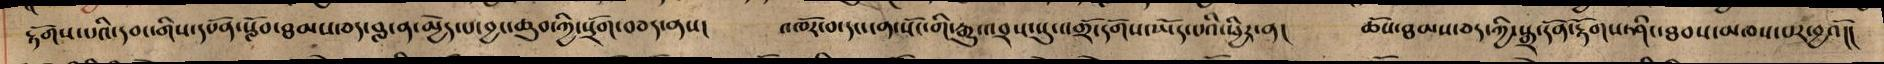རྟོགས་པའི་དབང་གིས་དཔོན་སློབ་ཐམས་ཅད་བླ་ན་མྱེད་པ་བྱང་ཆུབ་ཀྱི་སྲོག་བཅད་ནས། འཁོར་བ་དང་ངན་སོང་གི་རྒྱུ་འབྲས་སུ་འགྲོ་དགོས་ཡོད་པའི་ཕྱིར་ན། ཆོས་ཐམས་ཅད་ཀྱི་སྒྲ་དོན་རྟོགས་ཤིང་ཐབས་མཁས་པར་བྱའོ།།
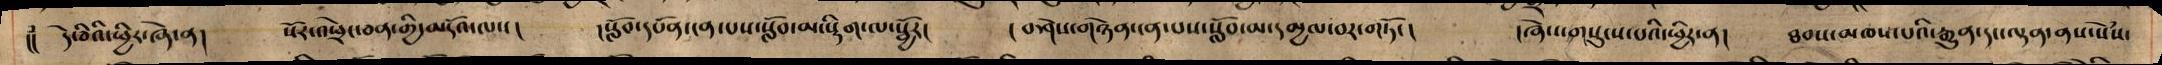།། དེ་ཅིའི་ཕྱིར་ཞེ་ན། སོར་འཕྲེང་ཅན་གྱི་མདོའ་ལས། །སློབ་དཔོན་ངན་པས་སློབ་མ་སྡིག་ལ་སྦྱོར། །བཤེས་གཉེན་ངན་པས་སློབ་མ་དམྱལ་བར་གཏོང། །ཞེས་གསུངས་པའི་ཕྱིར་ན། ཐབས་མཁས་པའི་རྒྱུན་དང་ལྡན་ནས་སེཾས་
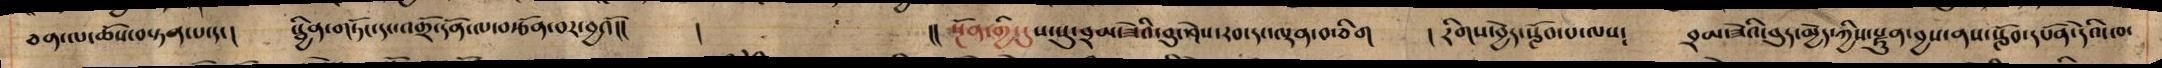ཅན་ལ་ཆོས་བསྟན་པ་དང། སྦྱིན་གཏོང་དང་འགྲོ་དོན་ལ་བརྩོན་བར་བྱའོ།། ། །། སྔོན་གྱི་དུས་སུ་བྲམ་ཟེའི་བུ་ཤེས་རབ་དང་ལྡན་བ་ཅིག ། རིགས་བྱེད་སློབ་པ་ལས༴ བྲམ་ཟེའི་བུད་མྱེད་ཀྱིས་སྫུན་བྱས་ནས་སློབ་དཔོན་དེའི་ཁ་
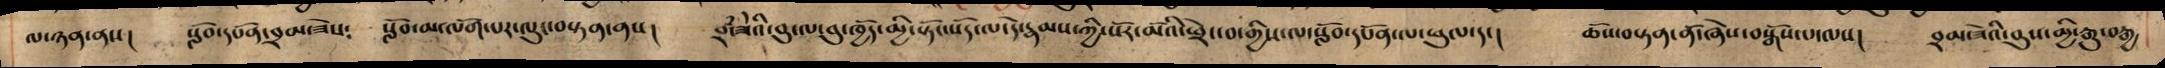ལ་ཉན་ནས། སློབ་དཔོན་བྲམ་ཟེས༴ སློབ་མ་ལོག་པར་ལུང་བསྟན་ནས། བྲཾ་ཟེའི་བུ་ལ་བུ་ཁྱོད་མྱི་སྟོང་སོད་ལ་དེ་རྣམས་ཀྱི་སོར་མོའི་ཕྲེང་བ་གྱིས་ལ་སློབ་དཔོན་ལ་ཕུལ་དང། ཆོས་བསྟན་ནོ་ཞེས་བསྒོས་པ་ལས། བྲམ་ཟེའི་བུས་མྱི་རྒྱུ་བརྒྱ
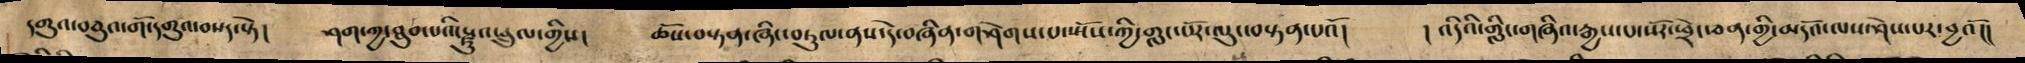དགུའ་བཅུའ་གོ་དགུའ་བསད་སྟེ། ཤག་ཀྱ་ཐུབ་པའི་སྫུ་འཕྲུལ་གྱིས། ཆོས་བསྟན་ཞིང་བཏུལ་ནས་དེ་བཞིན་གཤེགས་པ་ཡོས་ཀྱི་གླང་པོར་ལུང་བསྟན་པའོ། །འདིའི་གླིང་གཞིའ་རྒྱས་པ་སོར་ཕྲེང་ཅན་གྱི་མདོའ་ལས་ཤེས་པར་བྱའོ།།
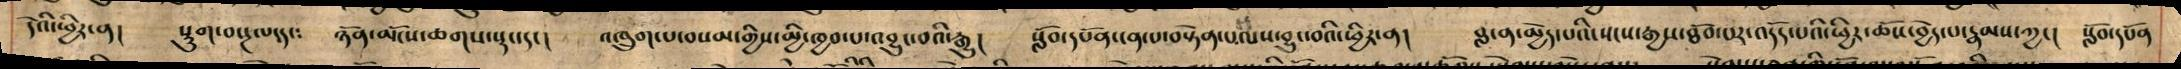དེའི་ཕྱིར་ན། སྡུག་བསྔལ་དང༴ ཉོན་མོངས་ཆགས་སྡང་དང། འཁྲུག་པ་བསམ་གྱིས་མྱི་ཁྱབ་པ་འབྱུང་བའི་རྒྱུ། སློབ་དཔོན་ངན་པ་བསྟོན་པ་ལས་བྱུང་བའི་ཕྱིར་ན། བླ་ན་མྱེད་པའི་སངས་རྒྱས་ཐོབ་པར་འདོད་པའི་ཕྱིར་ཆོས་བྱེད་པ་རྣམས་ཀྱང། སློབ་དཔོན
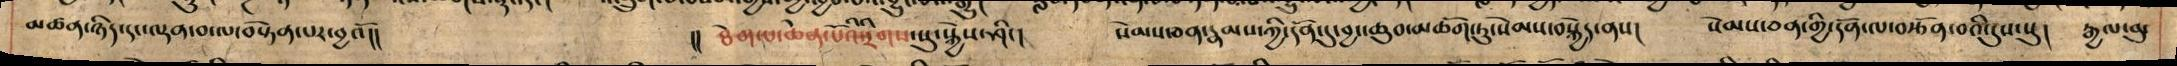མཚན་ཉིད་དང་ལྡན་བ་ལ་བསྟེན་པར་བྱའོ།། །། ཐེག་པ་ཆེན་པོའི་རིགས་སུ་སྐྱེས་ཤིང། སེམས་ཅན་རྣམས་ཀྱི་དོན་དུ་བྱང་ཆུབ་མཆོག་ཏུ་སེམས་བསྐྱེད་ནས། སེམས་ཅན་གྱི་དོན་ལ་བརྩོན་བའི་དུས་སུ། རྒྱལ་བུ་
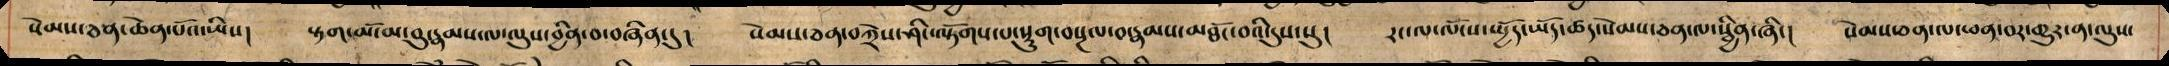སེམས་ཅན་ཆེན་པོའ་ཡིས། སྟག་མོ་མ་བུ་རྣམས་ལ་ལུས་བྱིན་བ་བཞིན་དུ། སེམས་ཅན་བཀྲེས་ཤིང་ལྟོགས་པ་སྡུག་བསྔལ་བ་རྣམས་མཐོང་བའི་དུས་སུ། རང་ལ་ལོངས་སྤྱོད་ཡོད་ཚད་སེམས་ཅན་ལ་སྦྱིན་ཞིང། སེམས་ཅན་ལ་ཕན་བར་གྱུར་ན་ལུས་
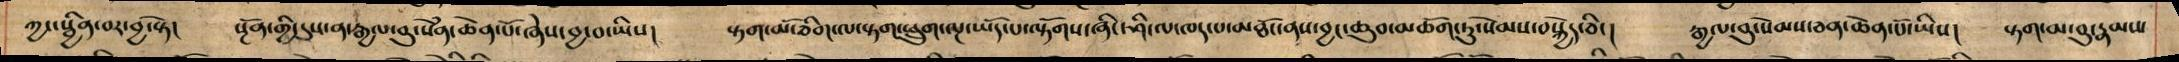ཀྱང་སྦྱིན་བར་བྱ་སྟེ། སྔོན་གྱི་དུས་ན་རྒྱལ་བུ་སན་ཆེན་པོ་ཞེས་བྱ་བ་ཡིས། སྟག་མོ་ཅིག་ལ་སྟག་ཕྲུག་ལྔ་ཡོད་པ་ལྟོགས་ཞཱིང་ཤི་ལ་ཁད་པ་མཐོང་ནས་བྱང་ཆུབ་མཆོག་ཏུ་སེམས་བསྐྱེད་ཅིང། རྒྱལ་བུ་སེམས་ཅན་ཆེན་པོ་ཡིས། སྟག་མ་བུ་རྣམས་
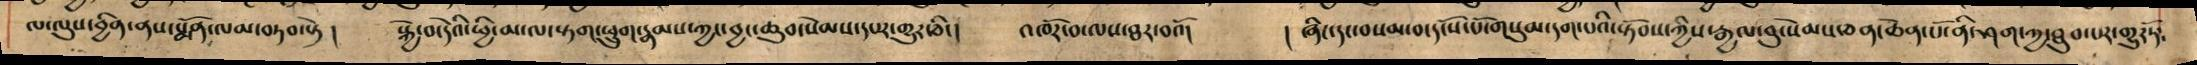ལ་ལུས་བྱིན་ནས་སྨོན་ལམ་བཏབ་སྟེ། སྐྱེ་བ་དེའི་ཕྱི་མ་ལ་སྟག་ཕྲུག་རྣམས་ཀྱང་བྱང་ཆུབ་སེམས་དཔར་གྱུར་ཅིང། འཁོར་བ་ལས་ཐར་བའོ། ། ཞིང་དང་བསམ་བ་དངོས་པོ་གསུམ་དག་པའི་སྟོབས་ཀྱིས་རྒྱལ་བུ་སེམས་ཅན་ཆེན་པོ་ནི་ཤག་ཀྱ་ཐུབ་པར་གྱུར་ཏོ༴
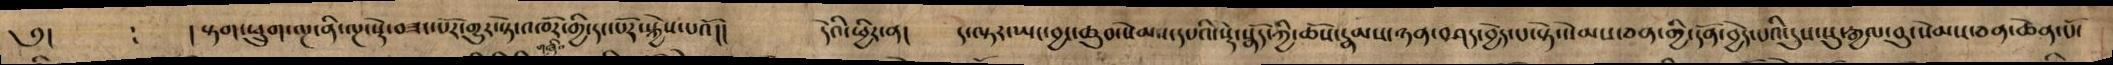༅། །སྟག་ཕྲུག་ལྔ་ནི་ལྔ་ལྔ་སྟེ་བཟང་པོར་གྱུར་སྟེ་འཁོར་གྱི་དང་པོར་སྐྱེས་པའོ།། དེའི་ཕྱིར་ན། ད་ལྟར་ཡང་བྱང་ཆུབ་སེམས་དཔའི་སྡེ་སྣོད་ཀྱི་ཆོས་རྣམས་ཉན་བཤད་བྱེད་པ་སྟེ་སེམས་ཅན་གྱི་དོན་བྱེད་པའི་དུས་སུ་རྒྱལ་བུ་སེམས་ཅན་ཆེན་པོ་
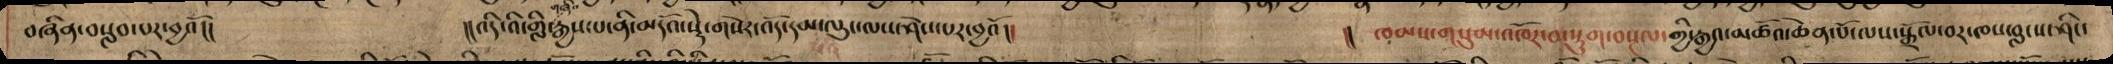བཞིན་བསླབ་པར་བྱའོ།། །།འདི་འི་གླི་རྒྱས་པ་ནི་མདོའ་སྡེ་གསེར་འོད་དམ་ལུང་ལས་ཤེས་པར་བྱའོ།། །། ཁམས་གསུམ་འཁོར་བ་སྡུག་བསྔལ་གྱི་རྒྱའ་མཚོའ་ཆེན་པོ་ལས་སྒྲོལ་བར་ཁས་བླངས་ཤིང་
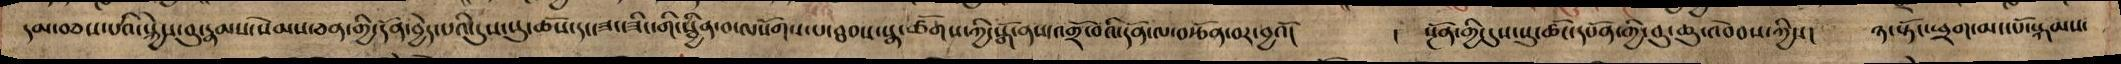དམ་བཅས་པའི་སྐྱེས་བུ་རྣམས་སེམས་ཅན་གྱི་དོན་བྱེད་པའི་དུས་སུ་ཆོས་དང་ཟང་ཟིང་གི་སྦྱིན་བ་ལསོགས་པ་ཐབས་སྣ་ཚོགས་ཀྱི་སྒོ་ནས་འགྲོ་བའི་དོན་ལ་བརྩོན་བར་བྱའོ། ། སྔོན་གྱི་དུས་སུ་ཚོང་དཔོན་གྱི་བུ་ཆུ་འབེབས་ཀྱིས། ཉ་སྟོང་ཕྲག་མང་པོ་སྐམས་
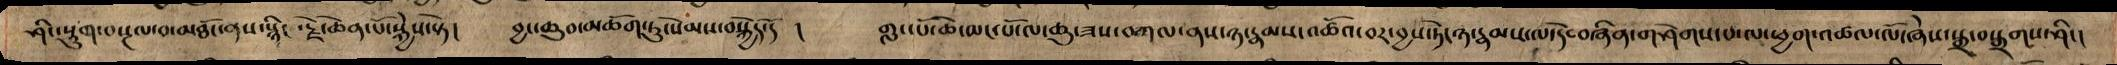ཤིང་སྡུག་བསྔལ་བ་མཐོང་ནས་སྙིང་རྗེ་ཆེན་པོ་སྐྱེས་སྟེ། བྱང་ཆུབ་མཆོག་ཏུ་སེམས་བསྐྱེད་དོ ། གླང་པོ་ཆེ་མང་པོ་ལ་ཆུ་ཟས་བཀལ་ནས་ཉ་རྣམས་འཚོའ་བར་བྱས་ཏེ་ཉ་རྣམས་ལ་དེ་བཞིན་གཤེགས་པ་ལ་ཕྱག་འཚལ་པོ་ཞེས་སྒྲ་བསྒྲགས་ཤིང།
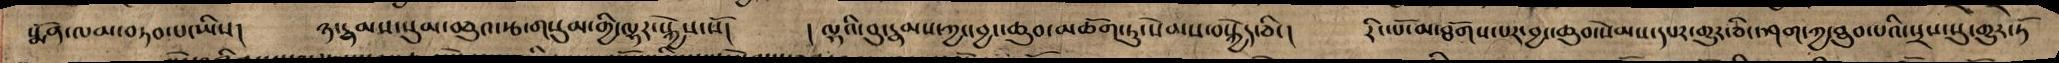སྨོན་ལམ་བཏབ་པ་ཡིས། ཉ་རྣམས་སུམ་བཅུའ་རྩ་གསུམ་གྱི་ལྷར་སྐྱེས་སོ། ། ལྷའི་བུ་རྣམས་ཀྱང་བྱང་ཆུབ་མཆོག་ཏུ་སེམས་བསྐྱེད་ཅིང། རིང་པོ་མ་ཐོགས་པར་བྱང་ཆུབ་སེམས་དཔར་གྱུར་ཅིང་ཤག་ཀྱ་ཐུབ་པའི་སྲས་སུ་གྱུར་ཏོ
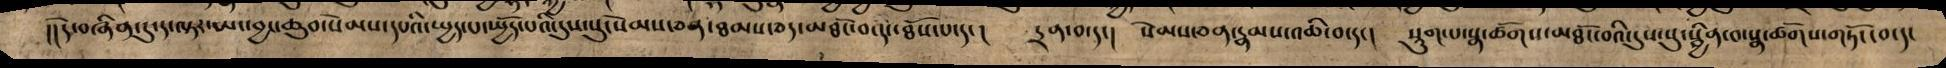།།དེ་བཞིན་དུ་ད་ལྟར་ཡང་བྱང་ཆུབ་སེམས་དཔའི་སྤྱད་པ་སྤྱོད་པའི་དུས་སུ་སེམས་ཅན་ཐམས་ཅད་མཐོང་བ་དང་ཐོས་པ་དང། དྲན་བ་དང། སེམས་ཅན་རྣམས་འཆི་བ་དང། སྡུག་པ་སྣ་ཚོགས་མཐོང་བའི་དུས་སུ་སྦྱིན་བ་སྣ་ཚོགས་གཏོང་བ་དང
